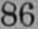86
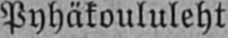Pyhäkoululeht
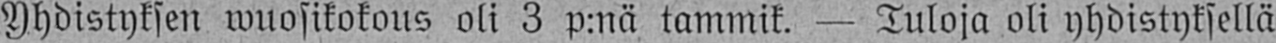Yhdistyksen wuosikokous oli 3 p:nä tammik. — Tuloja oli yhdistyksellä
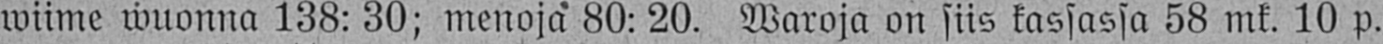wiime wuonna 138: 30; menoja 80: 20. Waroja on siis kassassa 58 mk. 10 p.
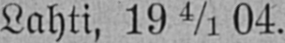Lahti. 19 4/1 04.
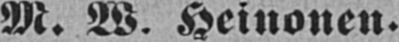M. W. Heinonen.
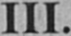III.
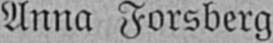Anna Forsberg.
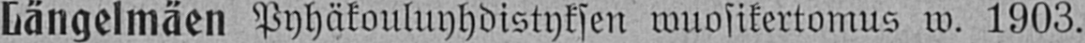Längelmäen Pyhäkouluyhdistyksen wuosikertomus w. 1903.
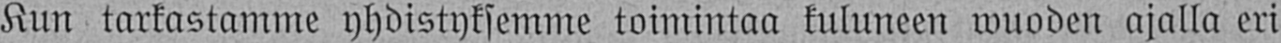Kun tarkastamme yhdistyksemme toimintaa kuluneen wuoden ajalla eri
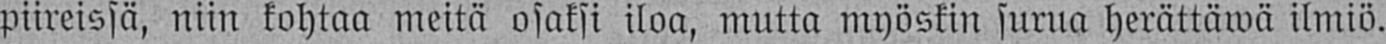piireissä, niin kohtaa meitä osaksi iloa. mutta myöskin surua herättäwä ilmiö.
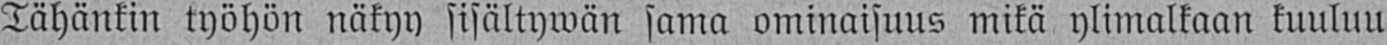Tähänkin työhön näkyy sisältywän sama ominaisuus mikä ylimalkaan kuuluu
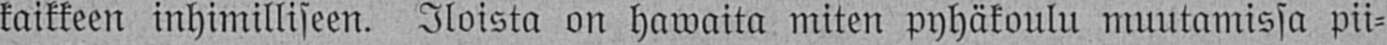kaikkeen inhimilliseen. Iloista on hawaita miten pyhäkoulu muutamissa pii-
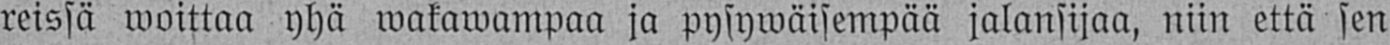reissä woittaa yhä wakawampaa ja pysywäisempää jalansijaa, niin että sen
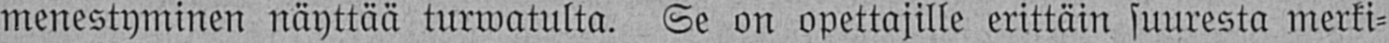menestyminen näyttää turwatulta. Se on opettajille erittäin suuresta merki-
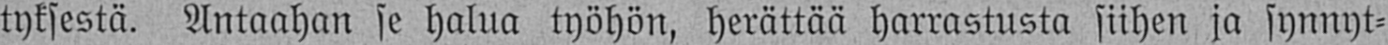tyksestä. Antaahan se halua työhön, herättää harrastusta siihen ja synnyt-
